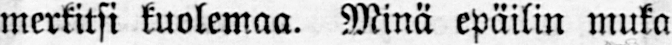merkitsi kuolemaa. Minä epäilin muka
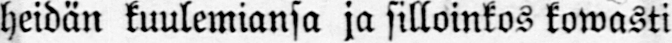heidän kuulemiansa ja silloinkos kowasti
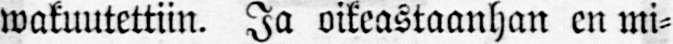wakuutettiin. Ja oikeastaanhan en mi-
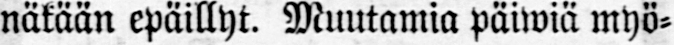näkään epäillyt. Muutamia päiwiä myö-
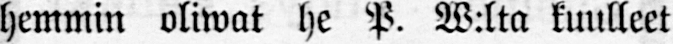hemmin oliwat he P. W:ltn kuulleet
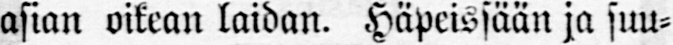asian oikean laidan. Häpeissään ja suu-
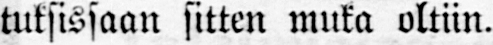tuksissaan sitten muta oltiin.
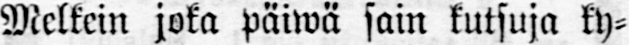Melkein joka päiwä sain kutsuja ky-
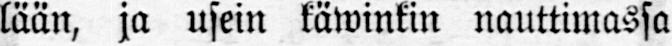lään, ja usein käwinkin nauttimassa
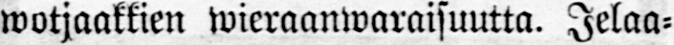wotjaakkien wieraanwaraisuutta. Jelaa-
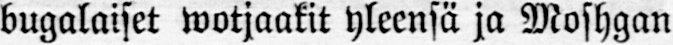bugalaiset wotjaakit yleensä ja Moshgan
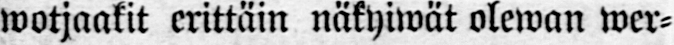wotjaakit erittäin näkyiwät olewan wer-
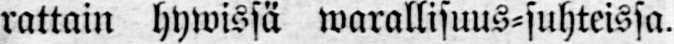rattain hywissä warallisuus-suhteissa.
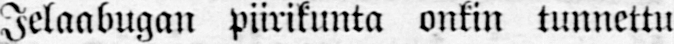Jelaabugan piirikunta onkin tunnettu
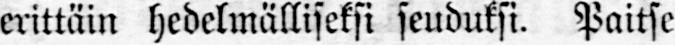erittäin hedelmälliseksi seuduksi. Paitse
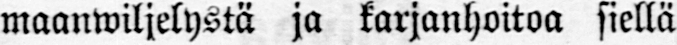maanwiljelystä ja karjanhoitoa siellä
